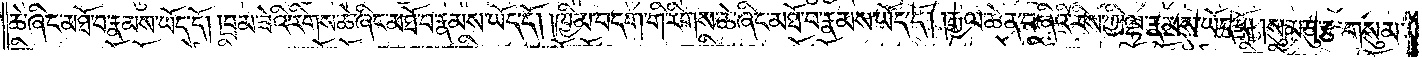ཆེ་ཞིང་མཐོ་བ་རྣམས་ཡོད་དོ། །བྲམ་ཟེའི་རིགས་ཆེ་ཞིང་མཐོ་བ་རྣམས་ཡོད་དོ། །ཁྱིམ་བདག་གི་རིགས་ཆེ་ཞིང་མཐོ་བ་རྣམས་ཡོད་དོ། །རྒྱལ་ཆེན་བཞིའི་རིས་ཀྱི་ལྷ་རྣམས་ཡོད་དོ། །སུམ་ཅུ་རྩ་གསུམ་
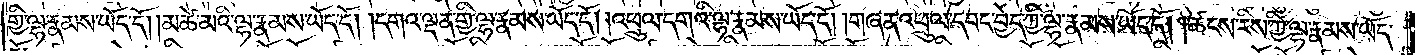གྱི་ལྷ་རྣམས་ཡོད་དོ། །མཚེ་མའི་ལྷ་རྣམས་ཡོད་དོ། །དགའ་ལྡན་གྱི་ལྷ་རྣམས་ཡོད་དོ། །འཕྲུལ་དགའི་ལྷ་རྣམས་ཡོད་དོ། །གཞན་འཕྲུལ་དབང་བྱེད་ཀྱི་ལྷ་རྣམས་ཡོད་དོ། །ཚངས་རིས་ཀྱི་ལྷ་རྣམས་ཡོད་
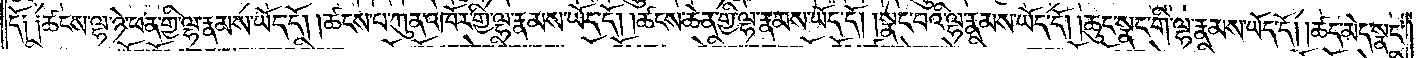དོ༑ ༑ཚངས་ལྷ་ཉེ་ཕན་གྱི་ལྷ་རྣམས་ཡོད་དོ། །ཚངས་པ་ཀུན་འཁོར་གྱི་ལྷ་རྣམས་ཡོད་དོ། །ཚངས་ཆེན་གྱི་ལྷ་རྣམས་ཡོད་དོ། །སྣང་བའི་ལྷ་རྣམས་ཡོད་དོ། །ཆུང་སྣང་གི་ལྷ་རྣམས་ཡོད་དོ། །ཚད་མེད་སྣང་
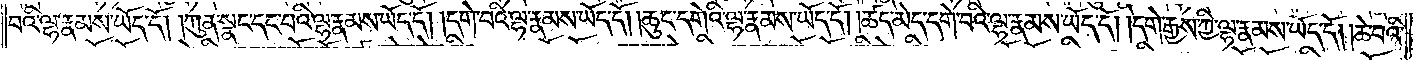བའི་ལྷ་རྣམས་ཡོད་དོ། །ཀུན་སྣང་དང་བའི་ལྷ་རྣམས་ཡོད་དོ། །དགེ་བའི་ལྷ་རྣམས་ཡོད་དོ། །ཆུང་དགེའི་ལྷ་རྣམས་ཡོད་དོ། །ཚད་མེད་དགེ་བའི་ལྷ་རྣམས་ཡོད་དོ། །དགེ་རྒྱས་ཀྱི་ལྷ་རྣམས་ཡོད་དོ། །ཆེ་བའི་
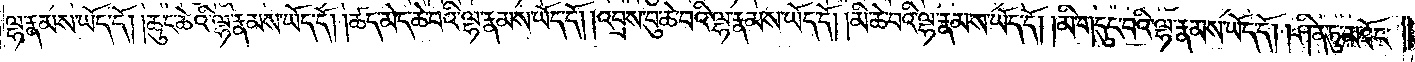ལྷ་རྣམས་ཡོད་དོ། །ཆུང་ཆེའི་ལྷ་རྣམས་ཡོད་དོ། །ཚད་མེད་ཆེ་བའི་ལྷ་རྣམས་ཡོད་དོ། །འབྲས་བུ་ཆེ་བའི་ལྷ་རྣམས་ཡོད་དོ། །མི་ཆེ་བའི་ལྷ་རྣམས་ཡོད་དོ། །མི་གདུང་བའི་ལྷ་རྣམས་ཡོད་དོ། ། ཤིན་ཏུ་མཐོང་
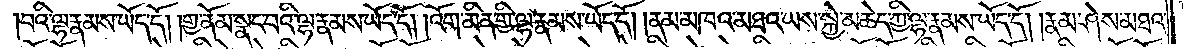བའི་ལྷ་རྣམས་ཡོད་དོ། །གྱ་ནོམ་སྣང་བའི་ལྷ་རྣམས་ཡོད་དོ། །འོག་མིན་གྱི་ལྷ་རྣམས་ཡོད་དོ། །ནམ་མཁའ་མཐའ་ཡས་སྐྱེ་མཆེད་ཀྱི་ལྷ་རྣམས་ཡོད་དོ། །རྣམ་ཤེས་མཐའ་
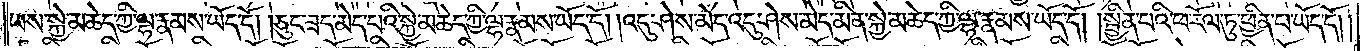ཡས་སྐྱེ་མཆེད་ཀྱི་ལྷ་རྣམས་ཡོད་དོ། །ཅུང་ཟད་མེད་པའི་སྐྱེ་མཆེད་ཀྱི་ལྷ་རྣམས་ཡོད་དོ། །འདུ་ཤེས་མེད་འདུ་ཤེས་མེད་མིན་སྐྱེ་མཆེད་ཀྱི་ལྷ་རྣམས་ཡོད་དོ། །སྦྱིན་པའི་ཕ་རོལ་ཏུ་ཕྱིན་པ་ཡོད་དོ། །
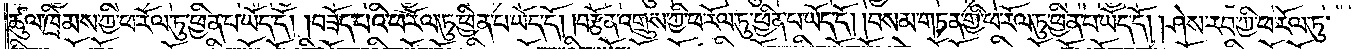ཚུལ་ཁྲིམས་ཀྱི་ཕ་རོལ་ཏུ་ཕྱིན་པ་ཡོད་དོ། །བཟོད་པའི་ཕ་རོལ་ཏུ་ཕྱིན་པ་ཡོད་དོ། །བརྩོན་འགྲུས་ཀྱི་ཕ་རོལ་ཏུ་ཕྱིན་པ་ཡོད་དོ། །བསམ་གཏན་གྱི་ཕ་རོལ་ཏུ་ཕྱིན་པ་ཡོད་དོ། །ཤེས་རབ་ཀྱི་ཕ་རོལ་ཏུ་
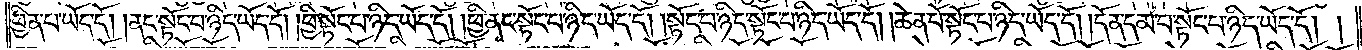ཕྱིན་པ་ཡོད་དོ། །ནང་སྟོང་པ་ཉིད་ཡོད་དོ། །ཕྱི་སྟོང་པ་ཉིད་ཡོད་དོ། །ཕྱི་ནང་སྟོང་པ་ཉིད་ཡོད་དོ། །སྟོང་པ་ཉིད་སྟོང་པ་ཉིད་ཡོད་དོ། །ཆེན་པོ་སྟོང་པ་ཉིད་ཡོད་དོ། །དོན་དམ་པ་སྟོང་པ་ཉིད་ཡོད་དོ། །
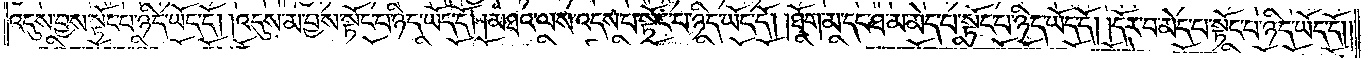འདུས་བྱས་སྟོང་པ་ཉིད་ཡོད་དོ། །འདུས་མ་བྱས་སྟོང་པ་ཉིད་ཡོད་དོ། །མཐའ་ལས་འདས་པ་སྟོང་པ་ཉིད་ཡོད་དོ། །ཐོག་མ་དང་ཐ་མ་མེད་པ་སྟོང་པ་ཉིད་ཡོད་དོ། །དོར་བ་མེད་པ་སྟོང་པ་ཉིད་ཡོད་དོ། །
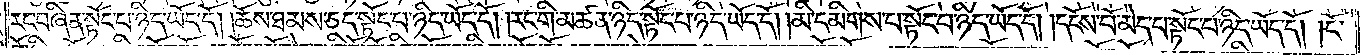རང་བཞིན་སྟོང་པ་ཉིད་ཡོད་དོ། །ཆོས་ཐམས་ཅད་སྟོང་པ་ཉིད་ཡོད་དོ། །རང་གི་མཚན་ཉིད་སྟོང་པ་ཉིད་ཡོད་དོ། །མི་དམིགས་པ་སྟོང་པ་ཉིད་ཡོད་དོ། །དངོས་པོ་མེད་པ་སྟོང་པ་ཉིད་ཡོད་དོ། །ངོ་
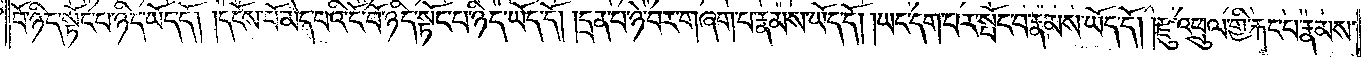བོ་ཉིད་སྟོང་པ་ཉིད་ཡོད་དོ། །དངོས་པོ་མེད་པའི་ངོ་བོ་ཉིད་སྟོང་པ་ཉིད་ཡོད་དོ། །དྲན་པ་ཉེ་བར་གཞག་པ་རྣམས་ཡོད་དོ། །ཡང་དག་པར་སྤོང་བ་རྣམས་ཡོད་དོ། །རྫུ་འཕྲུལ་གྱི་རྐང་པ་རྣམས་
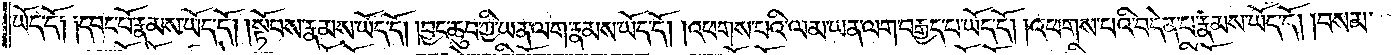ཡོད་དོ༑ ༑དབང་པོ་རྣམས་ཡོད་དོ། །སྟོབས་རྣམས་ཡོད་དོ། །བྱང་ཆུབ་ཀྱི་ཡན་ལག་རྣམས་ཡོད་དོ། །འཕགས་པའི་ལམ་ཡན་ལག་བརྒྱད་པ་ཡོད་དོ། །འཕགས་པའི་བདེན་པ་རྣམས་ཡོད་དོ། །བསམ་
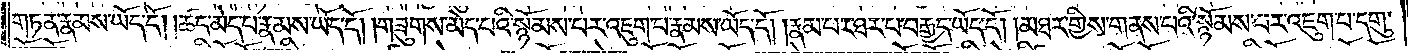གཏན་རྣམས་ཡོད་དོ། །ཚད་མེད་པ་རྣམས་ཡོད་དོ། །གཟུགས་མེད་པའི་སྙོམས་པར་འཇུག་པ་རྣམས་ཡོད་དོ། །རྣམ་པར་ཐར་པ་བརྒྱད་ཡོད་དོ། །མཐར་གྱིས་གནས་པའི་སྙོམས་པར་འཇུག་པ་དགུ་
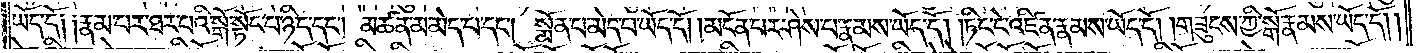ཡོད་དོ༑ ༑རྣམ་པར་ཐར་པའི་སྒོ་སྟོང་པ་ཉིད་དང༌། མཚན་མ་མེད་པ་དང༌། སྨོན་པ་མེད་པ་ཡོད་དོ། །མངོན་པར་ཤེས་པ་རྣམས་ཡོད་དོ། །ཏིང་ངེ་འཛིན་རྣམས་ཡོད་དོ། །གཟུངས་ཀྱི་སྒོ་རྣམས་ཡོད་དོ༎
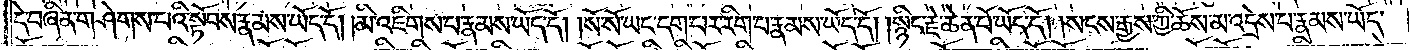དེ་བཞིན་གཤེགས་པའི་སྟོབས་རྣམས་ཡོད་དོ། །མི་འཇིགས་པ་རྣམས་ཡོད་དོ། །སོ་སོ་ཡང་དག་པར་རིག་པ་རྣམས་ཡོད་དོ། །སྙིང་རྗེ་ཆེན་པོ་ཡོད་དོ། །སངས་རྒྱས་ཀྱི་ཆོས་མ་འདྲེས་པ་རྣམས་ཡོད་
